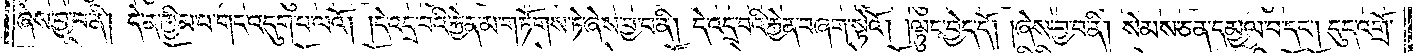ཞེས་བྱ་བ་ནི། དེ་ན་ཁྱིམ་པ་གང་འདུག་པ་ལའོ། །དེ་འདྲ་བའི་རྐྱེན་མ་གཏོགས་ཏེ་ཞེས་བྱ་བ་ནི། དེ་འདྲ་བའི་རྐྱེན་བཞག་སྟེའོ། །ལྟུང་བྱེད་དོ། །ཞེས་བྱ་བ་ནི། སེམས་ཅན་དམྱལ་བ་དང༌། དུད་འགྲོ་
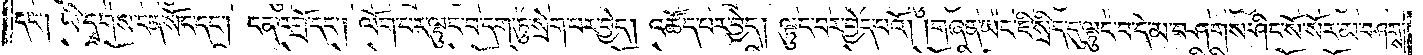དང༌། ཡི་དྭགས་ངན་སོང་དང༌། ངན་འགྲོ་དང༌། ལོག་པར་ལྟུང་བ་དག་ཏུ་སྲེག་པར་བྱེད། འཚོད་པར་བྱེད། ལྟུང་བར་བྱེད་པའོ། །གཞན་ཡང་ཇི་སྲིད་དུ་ལྟུང་བ་དེ་མ་བཤགས་ཤིང་སོ་སོར་མ་བཤགས་
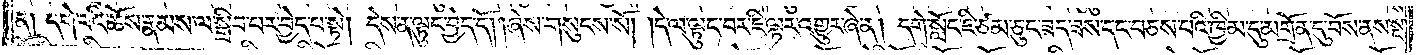ན། དགེ་བའི་ཆོས་རྣམས་ལ་སྒྲིབ་པར་བྱེད་པ་སྟེ། དེས་ན་ལྟུང་བྱེད་དོ། །ཞེས་གསུངས་སོ། །དེ་ལ་ལྟུང་བར་ཇི་ལྟར་འགྱུར་ཞེ་ན། དགེ་སློང་ཇི་ཙམ་ཅུང་ཟད་ཟས་དང་བཅས་པའི་ཁྱིམ་དུ་མགྲོན་དུ་བོས་ནས་སྔ་
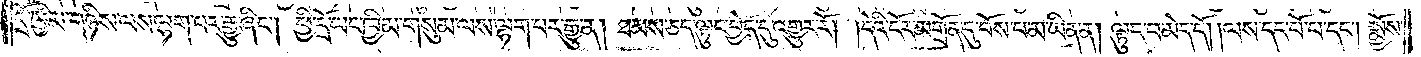དྲོ་ཁྱིམ་གཉིས་ལས་ལྷག་པར་རྒྱུ་ཞིང༌། ཕྱི་དྲོ་ཡང་ཁྱིམ་གསུམ་ལས་ལྷག་པར་རྒྱུ་ན། ཐམས་ཅད་ལྟུང་བྱེད་དུ་འགྱུར་རོ། །དེའི་ངོར་མགྲོན་དུ་བོས་པ་མ་ཡིན་ན། ལྟུང་བ་མེད་དོ། །ལས་དང་པོ་པ་དང༌། སྨྱོས་
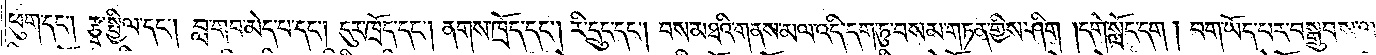ཕུག་དང༌། རྩྭ་སྤྱིལ་དང༌། བླ་གབ་མེད་པ་དང༌། དུར་ཁྲོད་དང༌། ནགས་ཁྲོད་དང༌། རི་དྲུང་དང༌། བས་མཐའི་གནས་མལ་འདི་དག་ཏུ་བསམ་གཏན་གྱིས་ཤིག །དགེ་སློང་དག །བག་ཡོད་པར་བསྒྲུབས་ལ
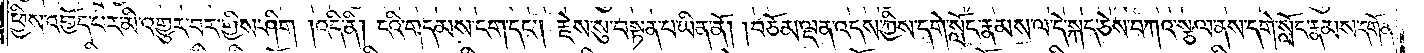ཕྱིས་འགྱོད་པར་མི་འགྱུར་བར་གྱིས་ཤིག །འདི་ནི། ངའི་གདམས་ངག་དང༌། རྗེས་སུ་བསྟན་པ་ཡིན་ནོ། །བཅོམ་ལྡན་འདས་ཀྱིས་དགེ་སློང་རྣམས་ལ་དེ་སྐད་ཅེས་བཀའ་སྩལ་ནས་དགེ་སློང་རྣམས་དགོན་
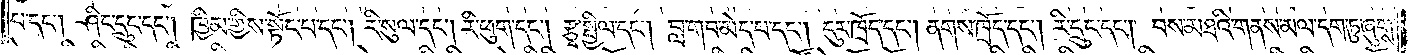པ་དང༌། ཤིང་དྲུང་དང༌། ཁྱིམ་གྱིས་སྟོང་པ་དང༌། རི་སུལ་དང༌། རི་ཕུག་དང༌། རྩྭ་སྤྱིལ་དང༌། བླ་གབ་མེད་པ་དང༌། དུར་ཁྲོད་དང༌། ནགས་ཁྲོད་དང༌། རི་དྲུང་དང༌། བས་མཐའི་གནས་མལ་དག་ཏུ་ཞུགས་
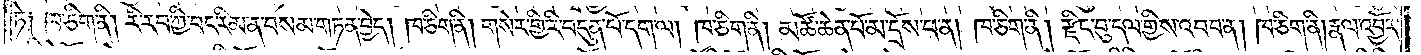ཏེ༑ ཁ་ཅིག་ནི། རི་རབ་ཀྱི་བང་རིམ་ན་བསམ་གཏན་བྱེད། ཁ་ཅིག་ནི། གསེར་གྱི་རི་བདུན་པོ་དག་ལ། ཁ་ཅིག་ནི། མཚོ་ཆེན་པོ་མ་དྲོས་པ་ན། ཁ་ཅིག་ནི། རྫིང་བུ་དལ་གྱིས་འབབ་ན། ཁ་ཅིག་ནི། རྣལ་འབྱོར་
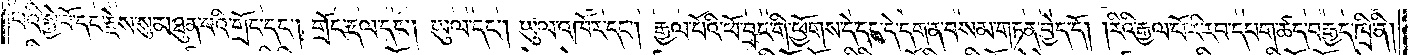པའི་སྐྱེ་བོ་དང་རྗེས་སུ་མཐུན་པའི་གྲོང་དང༌། གྲོང་རྡལ་དང༌། ཡུལ་དང༌། ཡུལ་འཁོར་དང༌། རྒྱལ་པོའི་ཕོ་བྲང་གི་ཕྱོགས་དེ་དང་དེ་དག་ན་བསམ་གཏན་བྱེད་དོ། །རིའི་རྒྱལ་པོ་རི་རབ་དཔག་ཚད་བརྒྱད་ཁྲི་ནི།
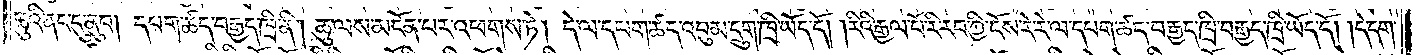ཆུའི་ནང་དུ་ནུབ། དཔག་ཚད་བརྒྱད་ཁྲི་ནི། ཆུ་ལས་མངོན་པར་འཕགས་ཏེ། དེ་ལ་དཔག་ཚད་འབུམ་དྲུག་ཁྲི་ཡོད་དོ། །རིའི་རྒྱལ་པོ་རི་རབ་ཀྱི་ངོས་རེ་རེ་ལ་དཔག་ཚད་བརྒྱད་ཁྲི་བརྒྱད་ཁྲི་ཡོད་དོ། །དེ་དག་
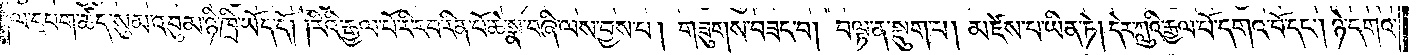ལ་དཔག་ཚད་སུམ་འབུམ་ཉི་ཁྲི་ཡོད་དོ། །རིའི་རྒྱལ་པོ་རི་རབ་རིན་པོ་ཆེ་སྣ་བཞི་ལས་བྱས་པ། གཟུགས་བཟང་བ། བལྟ་ན་སྡུག་པ། མཛེས་པ་ཡིན་ཏེ། དེར་ཀླུའི་རྒྱལ་པོ་དགའ་བོ་དང༌། ཉེ་དགའ་
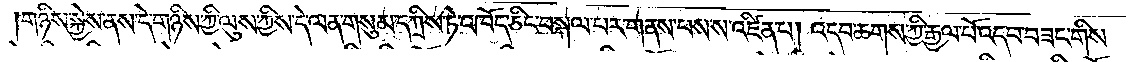གཉིས་སྐྱེས་ནས་དེ་གཉིས་ཀྱི་ལུས་ཀྱིས་དེ་ལན་གསུམ་དཀྲིས་ཏེ་འཁོད་ཅིང་བསྐལ་པར་གནས་པས་ས་འཛིན་པ། འདབ་ཆགས་ཀྱི་རྒྱལ་པོ་འདབ་བཟང་གིས་
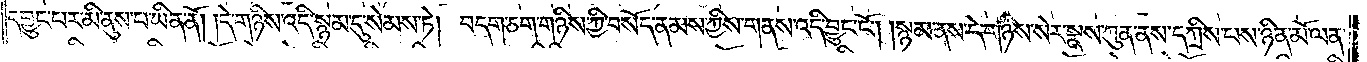དབྱུང་པར་མི་ནུས་པ་ཡིན་ནོ། །དེ་གཉིས་འདི་སྙམ་དུ་སེམས་ཏེ། བདག་ཅག་གཉིས་ཀྱི་བསོད་ནམས་ཀྱིས་གནས་འདི་བྱུང་ངོ༌། །སྙམ་ནས་དེ་གཉིས་སེར་སྣས་ཀུན་ནས་དཀྲིས་པས་ཉིན་མོ་ལན་
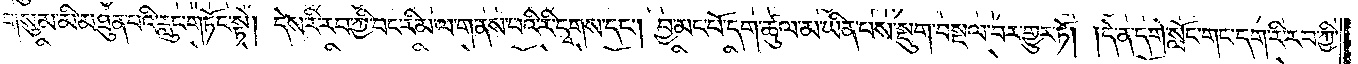གསུམ་མི་མཐུན་པའི་རླུང་གཏོང་སྟེ། དེས་རི་རབ་ཀྱི་བང་རིམ་ལ་གནས་པའི་རི་དྭགས་དང༌། བྱ་མང་པོ་དག་ཚུལ་མ་ཡིན་པས་སྡུག་བསྔལ་བར་གྱུར་ཏོ། །དེ་ན་དགེ་སློང་གང་དག་རི་རབ་ཀྱི་
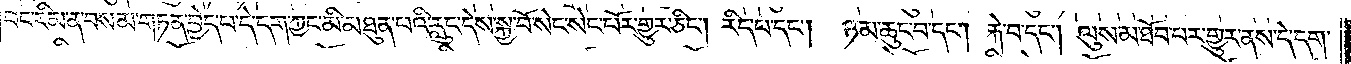བང་རིམ་ན་བསམ་གཏན་བྱེད་པ་དེ་དག་ཀྱང་མི་མཐུན་པའི་རླུང་དེས་སྐྱ་བོ་སེང་སེང་པོར་གྱུར་ཅིང༌། རིད་པ་དང༌། ཉམ་ཆུང་བ་དང༌། རྐེ་བ་དང༌། ལུས་མ་ཐོབ་པར་གྱུར་ནས་དེ་དག་
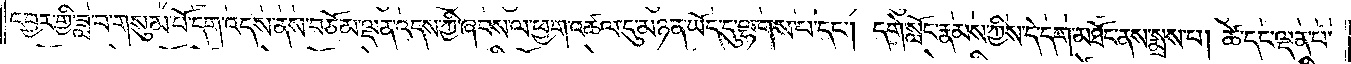དབྱར་གྱི་ཟླ་བ་གསུམ་པོ་དག་འདས་ནས་བཅོམ་ལྡན་འདས་ཀྱི་ཞབས་ལ་ཕྱག་འཚལ་དུ་མཉན་ཡོད་དུ་ལྷགས་པ་དང༌། དགེ་སློང་རྣམས་ཀྱིས་དེ་དག་མཐོང་ནས་སྨྲས་པ། ཚེ་དང་ལྡན་པ་
